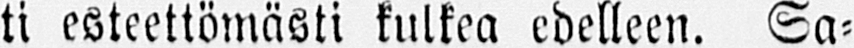ti esteettömästi kulkea edelleen. Sa-
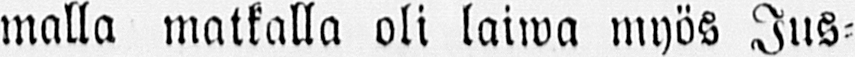malla matkalla oli laiwa myös Jus-
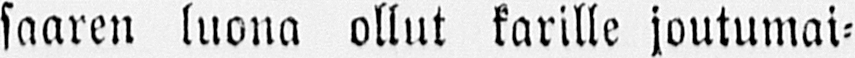saaren luona ollut karille joutumai-
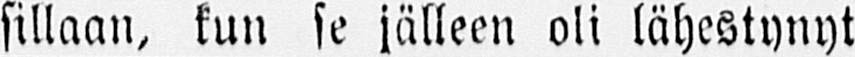sillaan, kun se jälleen oli lähestynyt
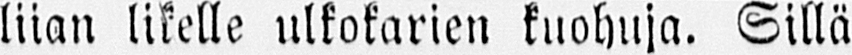liian likelle ulkokarien kuohuja. Sillä
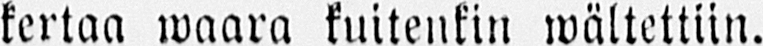kertaa waara kuitenkin wältettiin.
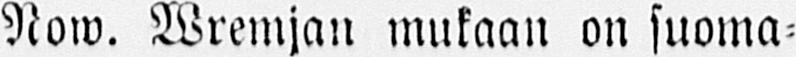Now. Wremjan mukaan on suoma-
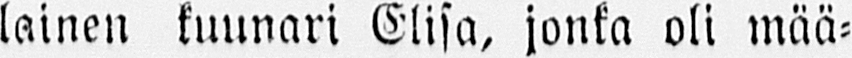lainen kuunari Elisa, jonka oli mää-
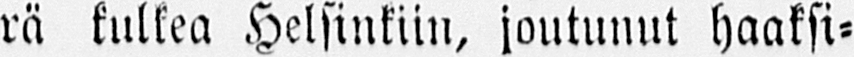rä kulkea Helsinkiin, joutunut haaksi-
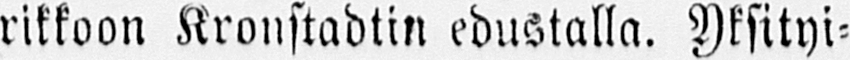rikkoon Kronstadtin edustalla. Yksityi-
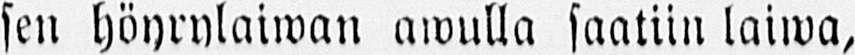sen höyrylaiwan awulla saatiin laiwa,
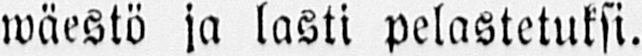wäestö ja lasti pelastetuksi.
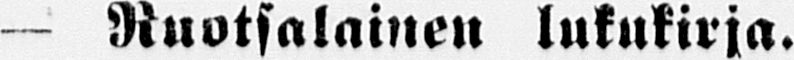— Ruotsalainen lukukirja.
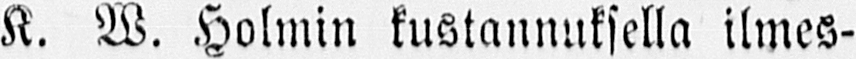K. W. Holmin kustannuksella ilmes-
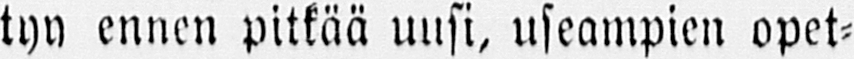tyn ennen pitkää uusi, useampien opet-
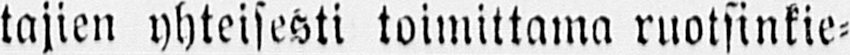tajien yhteisesti toimittama ruotsinkie-
